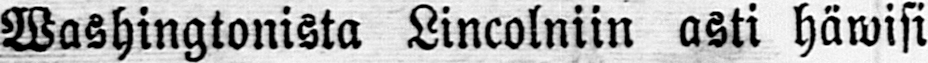Washingtonista Lincolniin asti häwisi
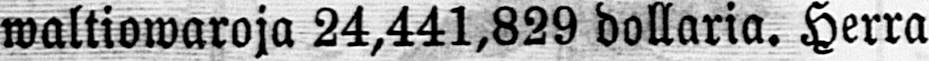waltiowaroja 24,441,829 dollaria. Herra
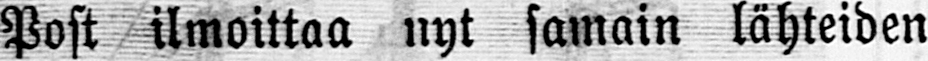Post ilmoittaa nyt samain lähteiden
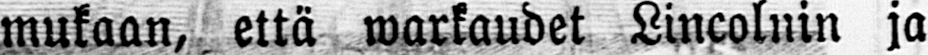mukaan, että warkaudet Lincolnin ja
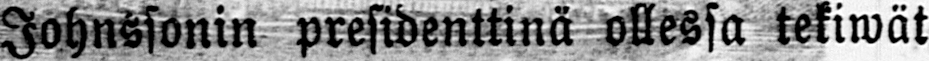Johnssonin presidenttinä ollessa tekiwät
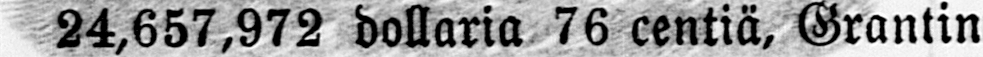24,657,972 dollaria 76 centiä, Grantin
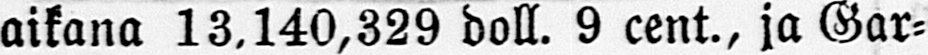aikana 13,140,329 doll. 9 cent., ja Gar-
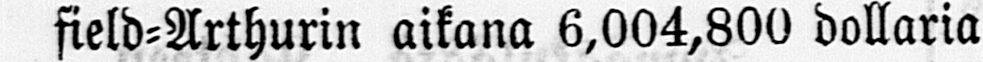field-Arthurin aikana 6,004,800 dollaria
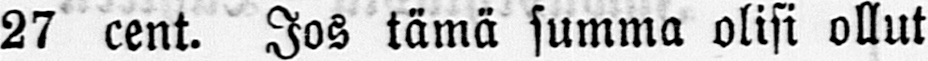27 cent. Jos tämä summa olisi ollut
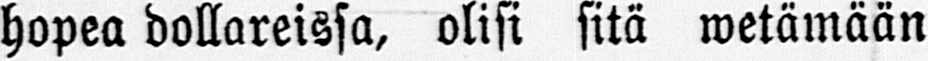hopea dollareissa, olisi sitä wetämään
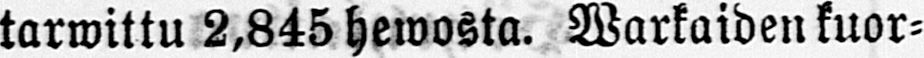tarmittu 2,845 hewosta. Warkaiden kuor-
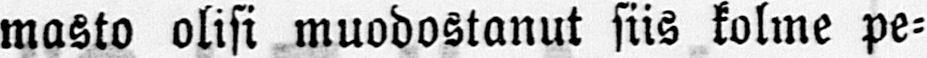masto olisi muodostanut siis kolme pe-
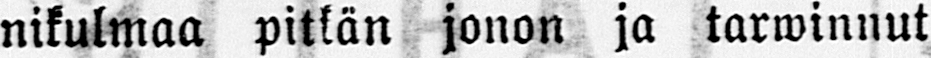nikulmaa pitkän jonon ja tarwinnut
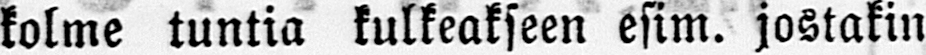kolme tuntia kulkeakseen esim. jostakin
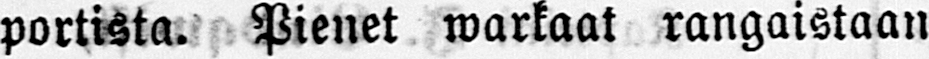portista. Pienet warkaat rangaistaan
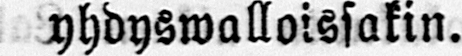yhdyswalloissakin.
